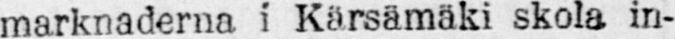marknaderna i Kärsämäki skola in-
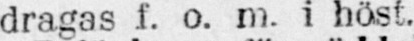dragas f. o. m. i höst.
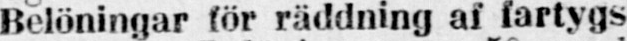Belöningar för räddning af fartygs-
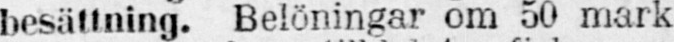besättning. Belöningar om 50 mark
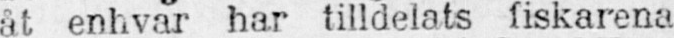åt enhvar har tilldelats fiskarena
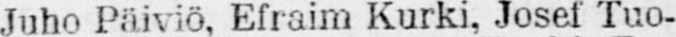Juho Päiviö, Efraim Kurki, Josef Tuo-
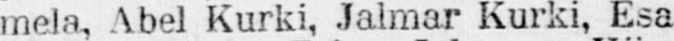mela, Abel Kurki, Jalmar Kurki, Esa
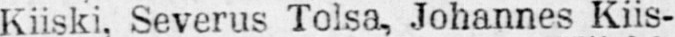Kiiski, Severus Tolsa, Johannes Kiis-
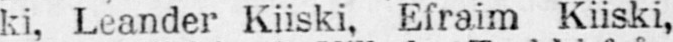ki, Leander Kiiski, Efraim Kiiski,
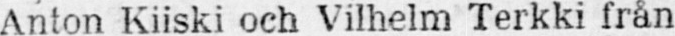Anton Kiiski och Vilhelm Terkki från
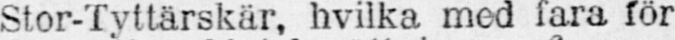Stor-Tyttärskär, hvilka med fara för
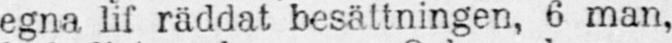egna lif räddat besättningen, 6 man,
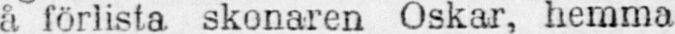å förlista skonaren Oskar, hemma
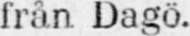från Dagö.
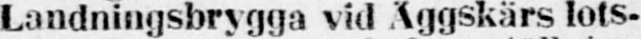Landningsbrygga vid Äggskärs lots-
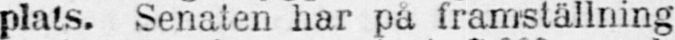plats. Senaten har på framställning
